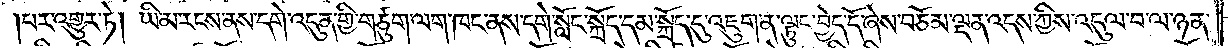པར་འགྱུར་ཏེ། ཡི་མ་རངས་ནས་དགེ་འདུན་གྱི་གཙུག་ལག་ཁང་ནས་དགེ་སློང་སྐྲོད་དམ་སྐྲོད་དུ་འཇུག་ན་ལྟུང་བྱེད་དོ་ཞེས་བཅོམ་ལྡན་འདས་ཀྱིས་འདུལ་བ་ལ་ཉན་
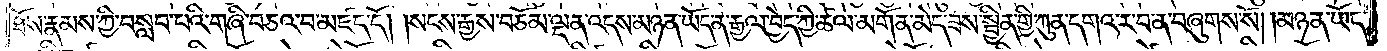ཐོས་རྣམས་ཀྱི་བསླབ་པའི་གཞི་བཅའ་བ་མཛད་དོ། །སངས་རྒྱས་བཅོམ་ལྡན་འདས་མཉན་ཡོད་ན་རྒྱལ་བྱེད་ཀྱི་ཚལ་མགོན་མེད་ཟས་སྦྱིན་གྱི་ཀུན་དགའ་ར་བ་ན་བཞུགས་སོ། །མཉན་ཡོད་
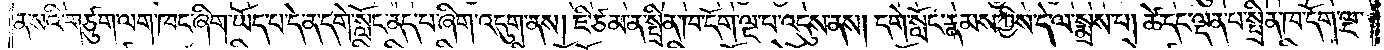ན་སའི་གཙུག་ལག་ཁང་ཞིག་ཡོད་པ་དེ་ན་དགེ་སློང་ནད་པ་ཞིག་འདུག་ནས། ཇི་ཙམ་ན་སྤྲིན་ཁ་དོག་ལྔ་པ་འདུས་ནས། དགེ་སློང་རྣམས་ཀྱིས་དེ་ལ་སྨྲས་པ། ཚེ་དང་ལྡན་པ་སྤྲིན་ཁ་དོག་ལྔ་
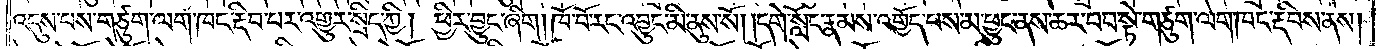འདུས་པས་གཙུག་ལག་ཁང་རྡིབ་པར་འགྱུར་སྲིད་ཀྱི། ཕྱིར་བྱུང་ཞིག །ཁོ་བོ་རང་འབྱུང་མི་ནུས་སོ། །དགེ་སློང་རྣམས་འགྱོད་པས་བསམ་ཕྱུང་ནས་ཆར་བབ་སྟེ་གཙུག་ལག་ཁང་རྡིབས་ནས།
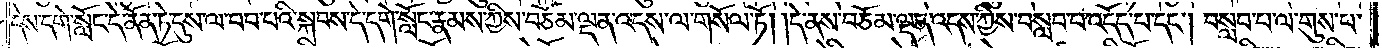དེས་དགེ་སློང་དེ་ནོན་ཏེ་དུས་ལ་བབ་པའི་སྐབས་དེ་དགེ་སློང་རྣམས་ཀྱིས་བཅོམ་ལྡན་འདས་ལ་གསོལ་ཏོ། །དེ་ནས་བཅོམ་ལྡན་འདས་ཀྱིས་བསླབ་པ་འདོད་པ་དང༌། བསླབ་པ་ལ་གུས་པ་
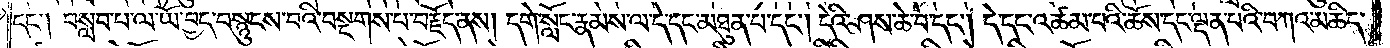དང༌། བསླབ་པ་ལ་ཡོ་བྱད་བསྙུངས་བའི་བསྔགས་པ་བརྗོད་ནས། དགེ་སློང་རྣམས་ལ་དེ་དང་མཐུན་པ་དང༌། དེའི་ཤས་ཆེ་བ་དང༌། དེ་དང་འཚམ་པའི་ཆོས་དང་ལྡན་པའི་བཀའ་མཆིད་
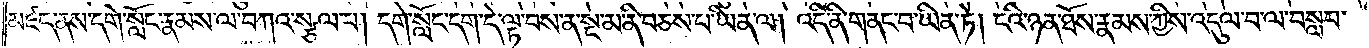མཛད་ནས་དགེ་སློང་རྣམས་ལ་བཀའ་སྩལ་པ། དགེ་སློང་དག་དེ་ལྟ་བས་ན་སྔ་མ་ནི་བཅས་པ་ཡིན་ལ། འདི་ནི་གནང་བ་ཡིན་ཏེ། ངའི་ཉན་ཐོས་རྣམས་ཀྱིས་འདུལ་བ་ལ་བསླབ་
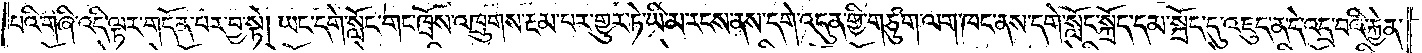པའི་གཞི་འདི་ལྟར་གདོན་པར་བྱ་སྟེ། ཡང་དགེ་སློང་གང་ཁྲོས་འཁྲུགས་རྔམ་པར་གྱུར་ཏེ་ཡི་མ་རངས་ནས་དགེ་འདུན་གྱི་གཙུག་ལག་ཁང་ནས་དགེ་སློང་སྐྲོད་དམ་སྐྲོད་དུ་འཇུད་ན་དེ་འདྲ་བའི་རྐྱེན་
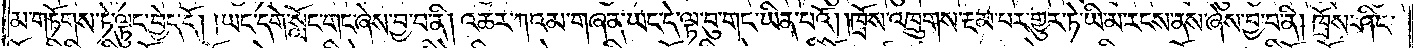མ་གཏོགས་ཏེ་ལྟུང་བྱེད་དོ། །ཡང་དགེ་སློང་གང་ཞེས་བྱ་བ་ནི། འཆར་ཀའམ་གཞན་ཡང་དེ་ལྟ་བུ་གང་ཡིན་པའོ། །ཁྲོས་འཁྲུགས་རྔམ་པར་གྱུར་ཏེ་ཡི་མ་རངས་ནས་ཞེས་བྱ་བ་ནི། ཁྲོས་ཤིང་
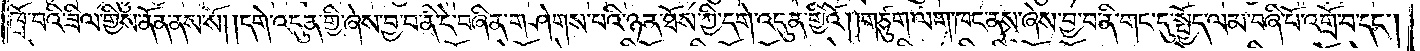ཁྲོ་བའི་ཟིལ་གྱིས་ནོན་ནས་སོ། །དགེ་འདུན་གྱི་ཞེས་བྱ་བ་ནི་དེ་བཞིན་གཤེགས་པའི་ཉན་ཐོས་ཀྱི་དགེ་འདུན་གྱིའོ། །གཙུག་ལག་ཁང་ནས་ཞེས་བྱ་བ་ནི་གང་དུ་སྤྱོད་ལམ་བཞི་པོ་འགྲོ་བ་དང༌།
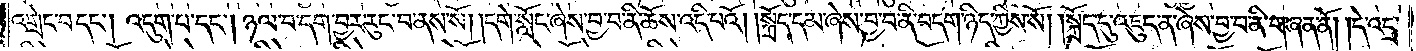འགྲེང་བ་དང༌། འདུག་པ་དང༌། ཉལ་བ་དག་བྱར་རུང་བ་ནས་སོ། །དགེ་སློང་ཞེས་བྱ་བ་ནི་ཆོས་འདི་པའོ། །སྐྲོད་དམ་ཞེས་བྱ་བ་ནི་བདག་ཉིད་ཀྱིས་སོ། །སྐྲོད་དུ་འཇུད་ན་ཞེས་བྱ་བ་ནི་གཞན་ནོ། །དེ་འདྲ་
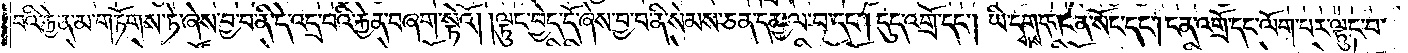བའི་རྐྱེན་མ་གཏོགས་ཏེ་ཞེས་བྱ་བ་ནི་དེ་འདྲ་བའི་རྐྱེན་བཞག་སྟེའོ། །ལྟུང་བྱེད་དོ་ཞེས་བྱ་བ་ནི་སེམས་ཅན་དམྱལ་བ་དང༌། དུད་འགྲོ་དང༌། ཡི་དྭགས་དང༌། ངན་སོང་དང༌། ངན་འགྲོ་དང་ལོག་པར་ལྟུང་བ་
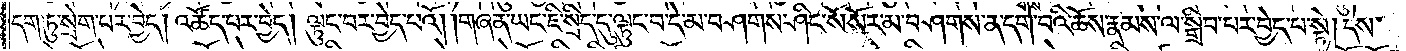དག་ཏུ་སྲེག་པར་བྱེད། འཚོད་པར་བྱེད། ལྟུང་བར་བྱེད་པའོ། །གཞན་ཡང་ཇི་སྲིད་དུ་ལྟུང་བ་དེ་མ་བཤགས་ཤིང་སོ་སོར་མ་བཤགས་ན་དགེ་བའི་ཆོས་རྣམས་ལ་སྒྲིབ་པར་བྱེད་པ་སྟེ། དེས་
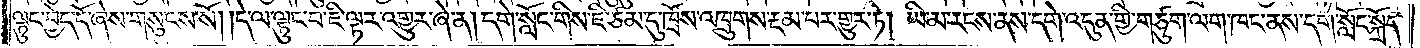ལྟུང་བྱེད་དོ་ཞེས་གསུངས་སོ། །དེ་ལ་ལྟུང་བ་ཇི་ལྟར་འགྱུར་ཞེ་ན། དགེ་སློང་གིས་ཇི་ཙམ་དུ་ཁྲོས་འཁྲུགས་རྔམ་པར་གྱུར་ཏེ། ཡི་མ་རངས་ནས་དགེ་འདུན་གྱི་གཙུག་ལག་ཁང་ནས་དགེ་སློང་སྐྲོད་
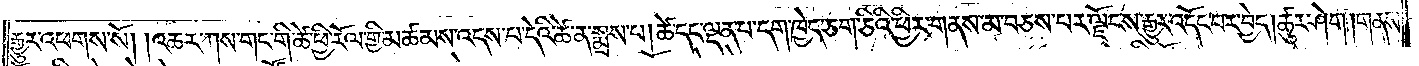རྒྱུར་འཕགས་སོ། །འཆར་ཀས་གང་གི་ཚེ་ཕྱི་རོལ་གྱི་མཚམས་འདས་པ་དེའི་ཚེ་ན་སྨྲས་པ། ཚེ་དང་ལྡན་པ་དག་ཁྱེད་ཅག་ཅིའི་ཕྱིར་གནས་མ་བཅས་པར་ལྗོངས་རྒྱུར་འདོང་བར་བྱེད། ཚུར་ཤེག །གནས་
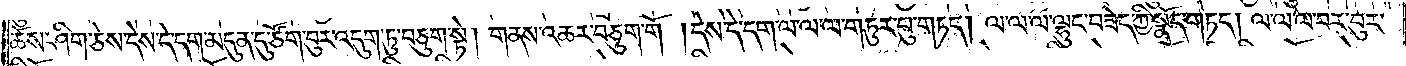ཆོས་ཤིག་ཅེས་དེས་དེ་དག་མདུན་དུ་ཙོག་བུར་འདུག་ཏུ་བཅུག་སྟེ། གནས་འཆར་བཅུག་གོ །དེས་དེ་དག་ལ་ལ་ལ་གཏུར་པུ་གཏད། ལ་ལ་ལ་ལྷུང་བཟེད་ཀྱི་སྣོད་གཏད། ལ་ལ་ལ་བར་བུར་
